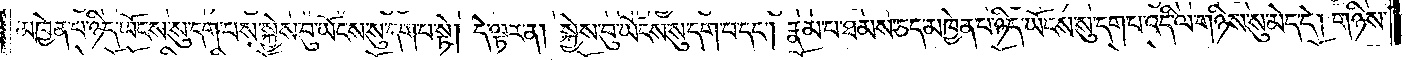མཁྱེན་པ་ཉིད་ཡོངས་སུ་དག་པས་སྐྱེས་བུ་ཡོངས་སུ་དག་པ་སྟེ། དེ་ལྟར་ན། སྐྱེས་བུ་ཡོངས་སུ་དག་པ་དང༌། རྣམ་པ་ཐམས་ཅད་མཁྱེན་པ་ཉིད་ཡོངས་སུ་དག་པ་འདི་ལ་གཉིས་སུ་མེད་དེ། གཉིས་
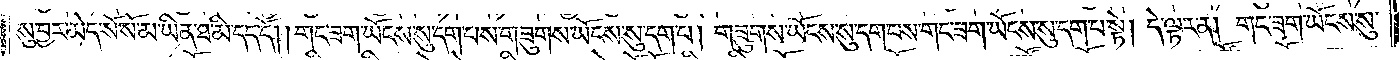སུ་བྱར་མེད་སོ་སོ་མ་ཡིན་ཐ་མི་དད་དོ། །གང་ཟག་ཡོངས་སུ་དག་པས་གཟུགས་ཡོངས་སུ་དག་པ། གཟུགས་ཡོངས་སུ་དག་པས་གང་ཟག་ཡོངས་སུ་དག་པ་སྟེ། དེ་ལྟར་ན། གང་ཟག་ཡོངས་སུ་
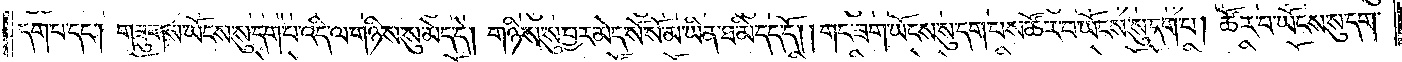དག་པ་དང༌། གཟུགས་ཡོངས་སུ་དག་པ་འདི་ལ་གཉིས་སུ་མེད་དེ། གཉིས་སུ་བྱར་མེད་སོ་སོ་མ་ཡིན་ཐ་མི་དད་དོ། །གང་ཟག་ཡོངས་སུ་དག་པས་ཚོར་བ་ཡོངས་སུ་དག་པ། ཚོར་བ་ཡོངས་སུ་དག་
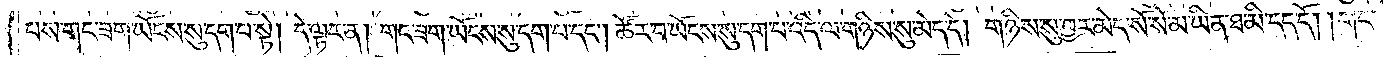པས་གང་ཟག་ཡོངས་སུ་དག་པ་སྟེ། དེ་ལྟར་ན། གང་ཟག་ཡོངས་སུ་དག་པ་དང༌། ཚོར་བ་ཡོངས་སུ་དག་པ་འདི་ལ་གཉིས་སུ་མེད་དེ། གཉིས་སུ་བྱར་མེད་སོ་སོ་མ་ཡིན་ཐ་མི་དད་དོ། །གང་
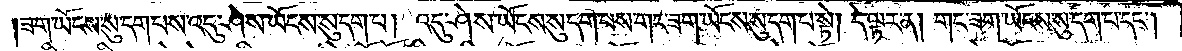ཟག་ཡོངས་སུ་དག་པས་འདུ་ཤེས་ཡོངས་སུ་དག་པ། འདུ་ཤེས་ཡོངས་སུ་དག་པས་གང་ཟག་ཡོངས་སུ་དག་པ་སྟེ། དེ་ལྟར་ན། གང་ཟག་ཡོངས་སུ་དག་པ་དང༌།
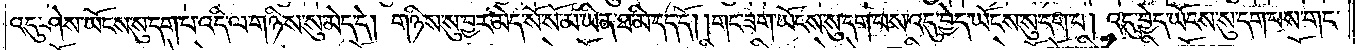འདུ་ཤེས་ཡོངས་སུ་དག་པ་འདི་ལ་གཉིས་སུ་མེད་དེ། གཉིས་སུ་བྱར་མེད་སོ་སོ་མ་ཡིན་ཐ་མི་དད་དོ། །གང་ཟག་ཡོངས་སུ་དག་པས་འདུ་བྱེད་ཡོངས་སུ་དག་པ། འདུ་བྱེད་ཡོངས་སུ་དག་པས་གང་
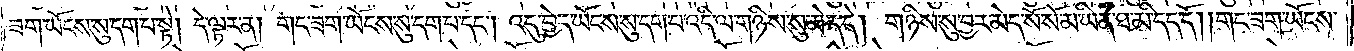ཟག་ཡོངས་སུ་དག་པ་སྟེ། དེ་ལྟར་ན། གང་ཟག་ཡོངས་སུ་དག་པ་དང༌། འདུ་བྱེད་ཡོངས་སུ་དག་པ་འདི་ལ་གཉིས་སུ་མེད་དེ། གཉིས་སུ་བྱར་མེད་སོ་སོ་མ་ཡིན་ཐ་མི་དད་དོ། །གང་ཟག་ཡོངས་
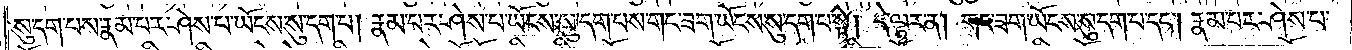སུ་དག་པས་རྣམ་པར་ཤེས་པ་ཡོངས་སུ་དག་པ། རྣམ་པར་ཤེས་པ་ཡོངས་སུ་དག་པས་གང་ཟག་ཡོངས་སུ་དག་པ་སྟེ། དེ་ལྟར་ན། གང་ཟག་ཡོངས་སུ་དག་པ་དང༌། རྣམ་པར་ཤེས་པ་
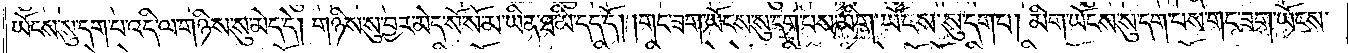ཡོངས་སུ་དག་པ་འདི་ལ་གཉིས་སུ་མེད་དེ། གཉིས་སུ་བྱར་མེད་སོ་སོ་མ་ཡིན་ཐ་མི་དད་དོ། །གང་ཟག་ཡོངས་སུ་དག་པས་མིག་ཡོངས་སུ་དག་པ། མིག་ཡོངས་སུ་དག་པས་གང་ཟག་ཡོངས་
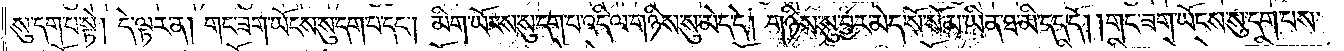སུ་དག་པ་སྟེ། དེ་ལྟར་ན། གང་ཟག་ཡོངས་སུ་དག་པ་དང༌། མིག་ཡོངས་སུ་དག་པ་འདི་ལ་གཉིས་སུ་མེད་དེ། གཉིས་སུ་བྱར་མེད་སོ་སོ་མ་ཡིན་ཐ་མི་དད་དོ། །གང་ཟག་ཡོངས་སུ་དག་པས་
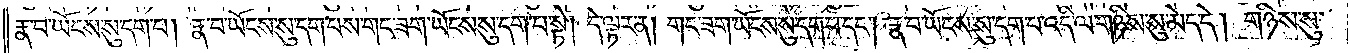རྣ་བ་ཡོངས་སུ་དག་པ། རྣ་བ་ཡོངས་སུ་དག་པས་གང་ཟག་ཡོངས་སུ་དག་པ་སྟེ། དེ་ལྟར་ན། གང་ཟག་ཡོངས་སུ་དག་པ་དང༌། རྣ་བ་ཡོངས་སུ་དག་པ་འདི་ལ་གཉིས་སུ་མེད་དེ། གཉིས་སུ་
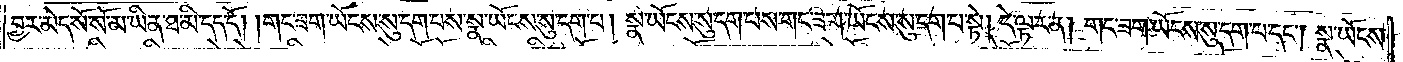བྱར་མེད་སོ་སོ་མ་ཡིན་ཐ་མི་དད་དོ། །གང་ཟག་ཡོངས་སུ་དག་པས་སྣ་ཡོངས་སུ་དག་པ། སྣ་ཡོངས་སུ་དག་པས་གང་ཟག་ཡོངས་སུ་དག་པ་སྟེ། དེ་ལྟར་ན། གང་ཟག་ཡོངས་སུ་དག་པ་དང༌། སྣ་ཡོངས་
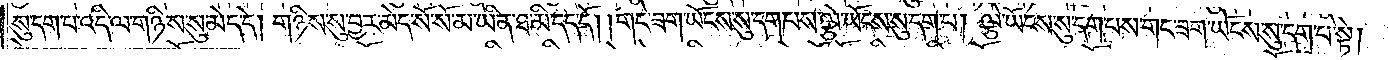སུ་དག་པ་འདི་ལ་གཉིས་སུ་མེད་དེ། གཉིས་སུ་བྱར་མེད་སོ་སོ་མ་ཡིན་ཐ་མི་དད་དོ། །གང་ཟག་ཡོངས་སུ་དག་པས་ལྕེ་ཡོངས་སུ་དག་པ། ལྕེ་ཡོངས་སུ་དག་པས་གང་ཟག་ཡོངས་སུ་དག་པ་སྟེ།
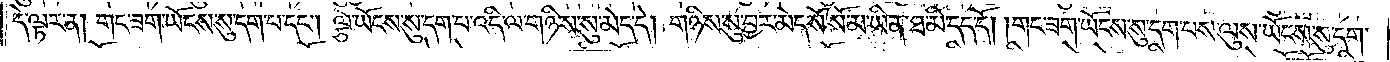དེ་ལྟར་ན། གང་ཟག་ཡོངས་སུ་དག་པ་དང༌། ལྕེ་ཡོངས་སུ་དག་པ་འདི་ལ་གཉིས་སུ་མེད་དེ། གཉིས་སུ་བྱར་མེད་སོ་སོ་མ་ཡིན་ཐ་མི་དད་དོ། །གང་ཟག་ཡོངས་སུ་དག་པས་ལུས་ཡོངས་སུ་དག་
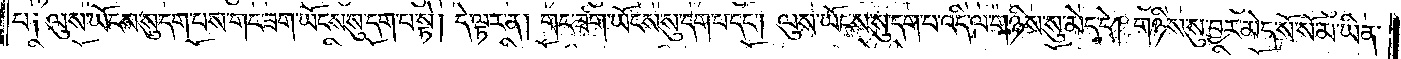པ༑ ལུས་ཡོངས་སུ་དག་པ་གང་ཟག་ཡོངས་སུ་དག་པ་སྟེ། དེ་ལྟར་ན། གང་ཟག་ཡོངས་སུ་དག་པ་དང༌། ལུས་ཡོངས་སུ་དག་པ་འདི་ལ་གཉིས་སུ་མེད་དེ། གཉིས་སུ་བྱར་མེད་སོ་སོ་མ་ཡིན་
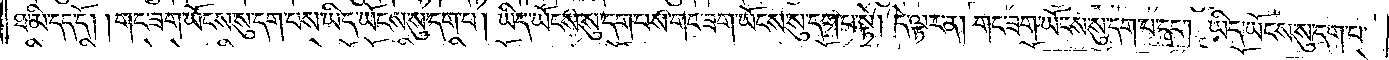ཐ་མི་དད་དོ། །གང་ཟག་ཡོངས་སུ་དག་པས་ཡིད་ཡོངས་སུ་དག་པ། ཡིད་ཡོངས་སུ་དག་པས་གང་ཟག་ཡོངས་སུ་དག་པ་སྟེ། དེ་ལྟར་ན། གང་ཟག་ཡོངས་སུ་དག་པ་དང༌། ཡིད་ཡོངས་སུ་དག་པ་
